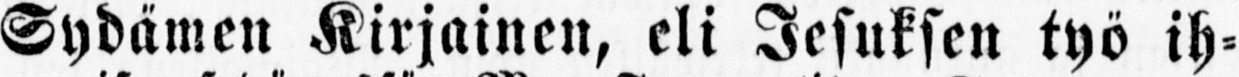Sydämen Kirjainen, eli Jesuksen työ ih-
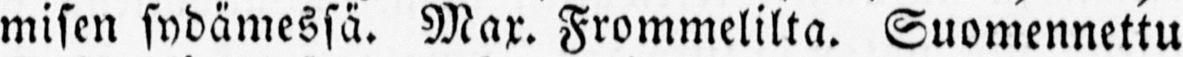misen sydämessä. Max. Frommelilta. Suomennettu
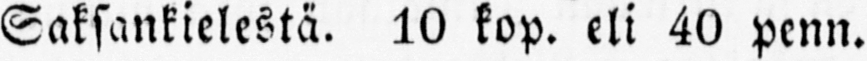Saksankielestä. 10 kop. eli 40 penn.
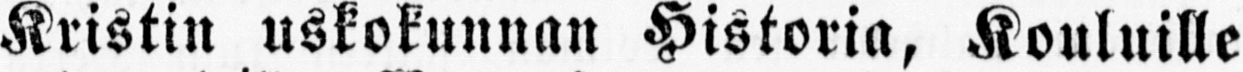Kristin uskokunnan Historia, Kouluille
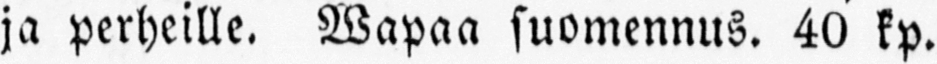ja perheille. Wapaa suomennus. 40 kp.
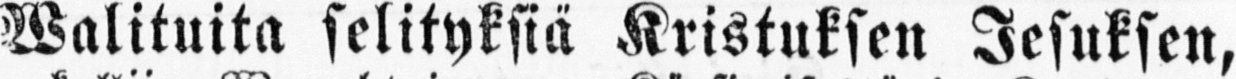Walituita selityksiä Kristuksen Jesuksen,
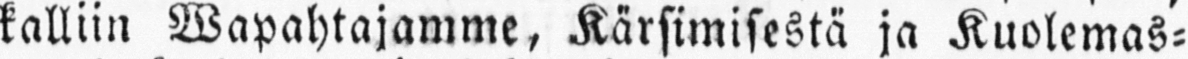kalliin Wapahtajamme, Kärsimisestä ja Kuolemas-
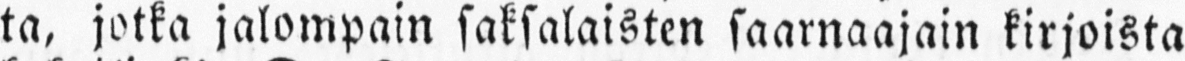ta, jotka jalompain saksalaisten saarnaajain kirjoista
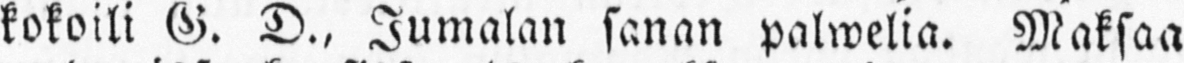kokoili G. D., Jumalan sanan palwelia. Maksaa
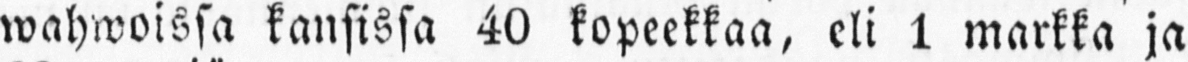wahwoissa kansissa 40 kopeekkaa, eli 1 markka ja
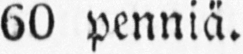60 penniä.
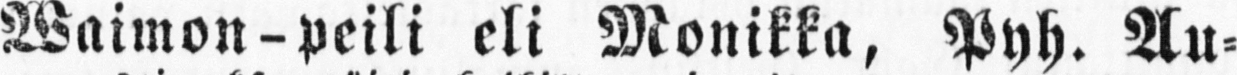Waimon-peili eli Monikka, Pyh. Au-
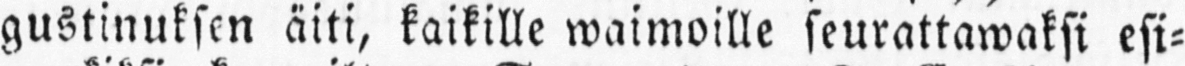gustinuksen äiti, kaikille waimoille seurattawaksi esi-
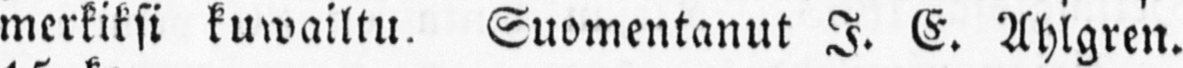merkiksi kuwailtu. Suomentanut J. E. Ahlgren.
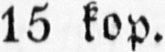15 kop.
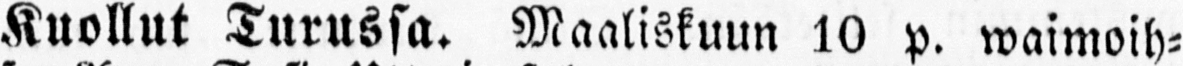Kuollut Turussa. Maaliskuun 10 p. waimoih-
